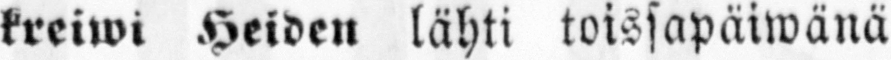kreiwi Heiden lähti toissapäiwänä
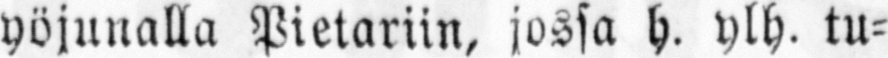yöjunalla Pietariin, jossa h. ylh. tu-
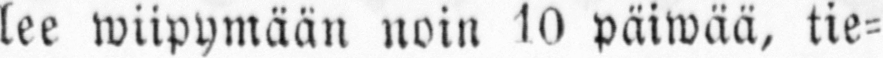lee wiipymään noin 10 päiwää, tie-
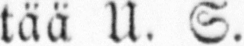tää U. S.
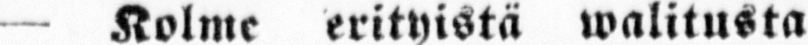— Kolme erityistä walitusta
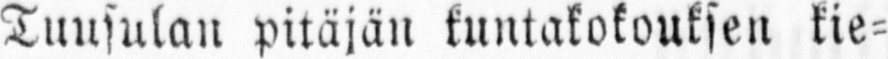Tuusulan pitäjän kuntakokouksen kie-
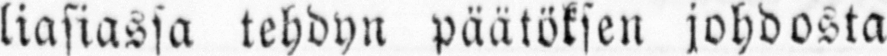liasiassa tehdyn päätöksen johdosta
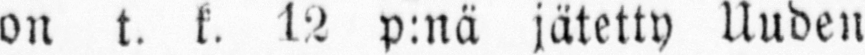on t. k. 12 p:nä jätetty Uuden-
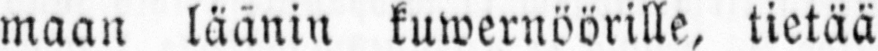maan läänin kuwernöörille, tietää
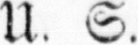U. S.
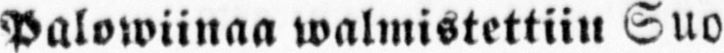Palowiinaa walmistettiin Suo-
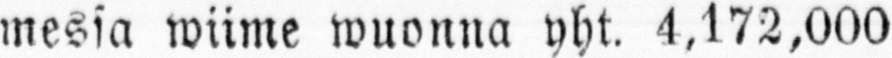messa wiime wuonna yht. 4,172,000
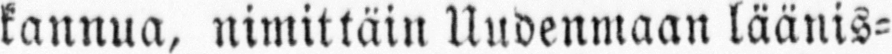kannua, nimittäin Uudenmaan läänis-
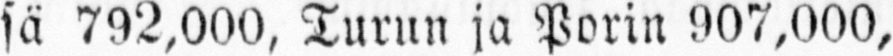sä 792,000, Turun ja Porin 907,000,
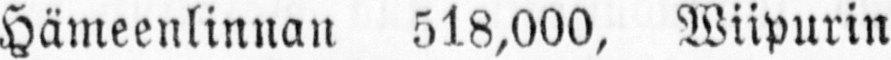Hämeenlinnan 5,18,000, Wiipurin
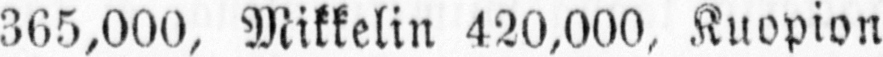365,000, Mikkelin 420,000, Kuopion
